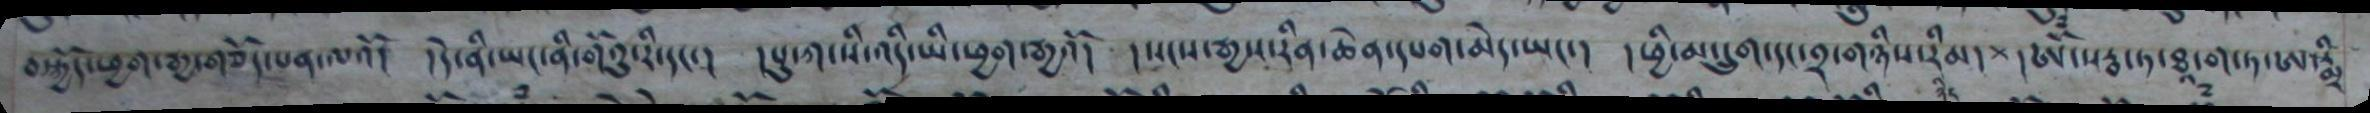བསྐྱོད་ཕྱག་རྒྱ་གཅོད་པན་ལའོ།   །དེ་ནི་ཡང་ནི་གོའུ་རི་དང་།  །པུ་ཀ་སི་འདི་ཡི་ཕྱ་རྒྱའོ།   །སངས་རྒྱས་རིན་ཆེན་དཔག་མེད་ཡང་།  །ཕྱི་མ་དྲུག་དང་༢་གཉིས་རིམ་ཉིད།  ཨོཾ་སརྦ་ཏ་ཐཱ་ག་ཏ་ཨསྨྲི
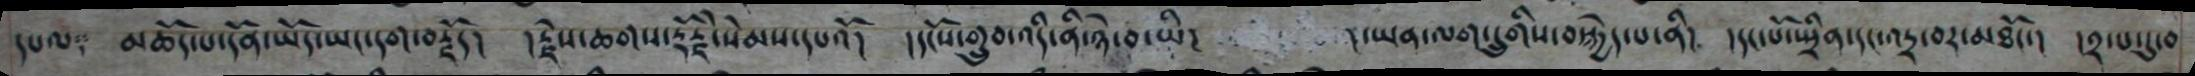དཔལ༑ མཆོད་པ་དོན་ཡོད་ཡང་དག་བརྗོད། །རྗེས་ཆགས་རྡོརྗེ་སེམས་དཔའོ། །དངོས་གྲུབ་འདི་ནི་ཉེ་བ་ཡི། །ཡན་ལག་དྲུགིས་བསྐྱེད་པ་ནི། །དང་པོ་སྤྲིན་དང་འདྲ་བར་མཐོང་། །༢་པ་དུ་བ
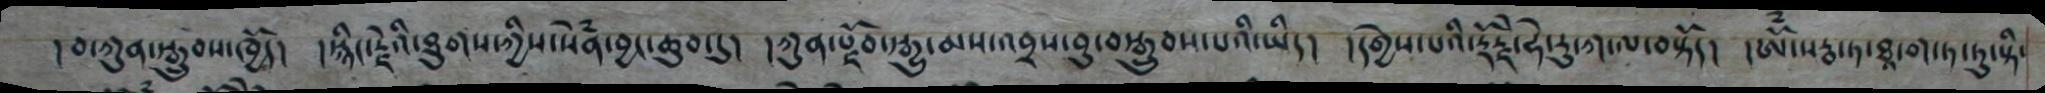།བ་ཀུན་སྒྲུབས་ལཁྱོད། །སྙིང་རྗེའི་ཐུགས་ཀྱིས་སེཾན་བྱང་ཆུབ་དུ། །ཀུན་སྫོབ་སྒྱུ་མས་འབྲས་བུ་བསྒྲུབས་པའི་ཡིད། །དགྱེས་པའི་རྡོརྗེ་ཧེ་རུ་ཀ་ལ་བསྟོད། །ཨོཾ་སརྦ་ཏ་ཐཱ་ག་ཏ་ཏུ་སྟི་
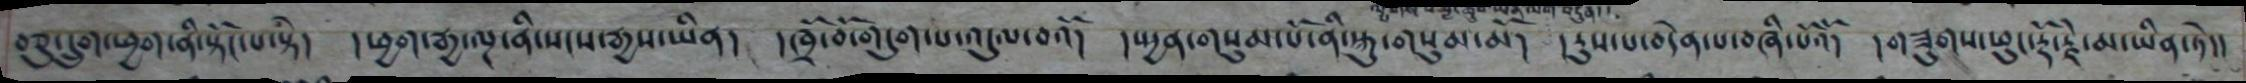བཅུ་དྲུག་ཕྱག་ནི་སྟོང་པ་སྟེ།  །ཕྱག་རྒྱ་ལྔ་ནི་སངས་རྒྱས་ཡིན།  །ཁྲོ་བོ་གདུག་པ་འདུལ་བའོ།  །སྤྱན་གསུམ་པོ་ནི་སྐུ་གསུམ་མོ།   །རུས་པ་བདེན་པ་བཞི་པོའོ།   །གཟུགས་ཕུང་རྡོ་རྗེ་མ་ཡིན་ཏེ།།
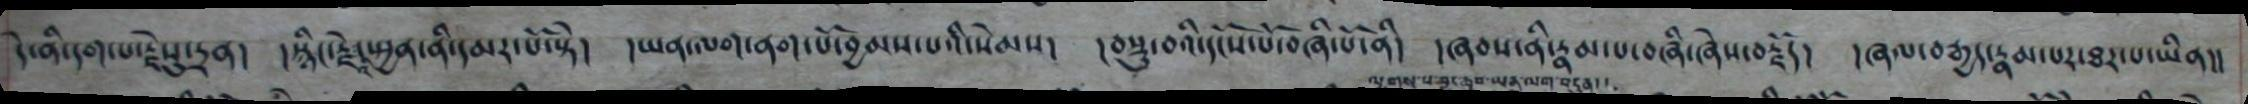དེ་ནི་དག་པ་རྗེསུ་དྲན།  །སྙིང་རྗེ་སྤྱན་ནི་དམར་པོ་སྟེ།  །ཡན་ལག་ནག་པོ་བྱམས་པའི་སེམས།  །བསྡུ་བའི་དངོས་པོ་བཞི་པོ་ནི།  །ཞབས་ན་རྣམ་པ་བཞི་ཞེས་བརྗོད།  །ཞལ་བརྒྱད་རྣམ་པར་ཐར་པ་ཡིན།།
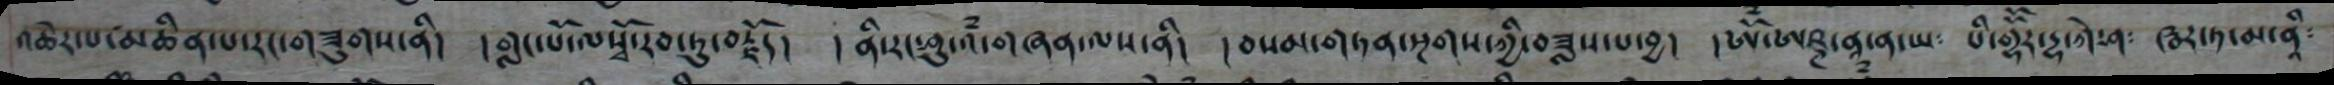འཆེར་པ་མཆིན་པ་རང་གཟུགས་ནི། །གླང་པོ་ལསྭོ་རབ་ཏུ་བརྗོད། །ནི་རང་ཤུ་འཾ་གཞན་ལས་ནི། །བསམ་གཏན་སྔགས་ཀྱི་བཟླས་པ་བྱ། །ཨོཾ་ཨཥྚ་ནཱ་ན་ཡ༴ པི་གྷོོར་དྷ་ཀེ་ཤ༴ ཝར་ཏ་མ་ནཱི༴
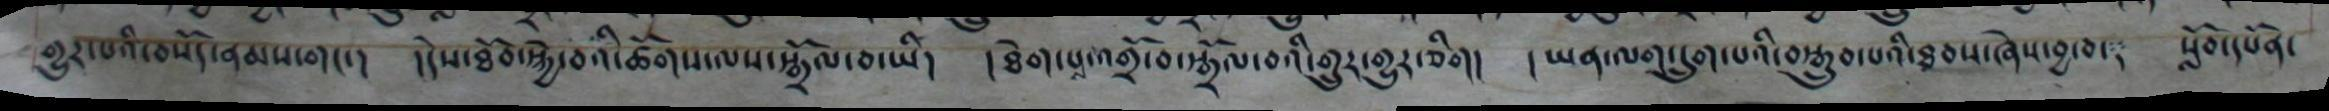གྱུར་པའི་བསོད་ནམས་གང་།  །དེས་ཐོབ་སྐྱེ་བའི་ཚོགས་ལས་སྒྲོལ་བ་ཡི།  །ཐེག་པས་འགྲོ་བ་སྒྲོལ་བའི་གྲུར་གྱུར་ཅིག།   །ཡན་ལག་དྲུག་པའི་བསྒྲུབ་པའི་ཐབས་ཞེས་བྱ་བ་།   སློབ་དཔོན་
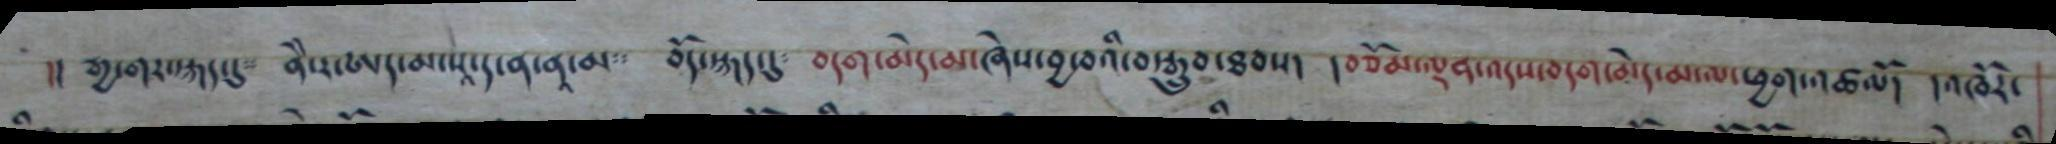།། རྒྱ་གར་སྐད་དུ༴ ནཻ་ར་ཨད་མ་སཱ་ད་ན་ནཱ་མ༴༴ བོད་སྐད་དུ༴ བདག་མེད་མ་ཞེས་བྱ་བའི་བསྒྲུབ་ཐབས། །བཅོམ་ལྡན་འདས་བདག་མེད་མ་ལ་ཕྱག་འཚལོ། །འཁོར་
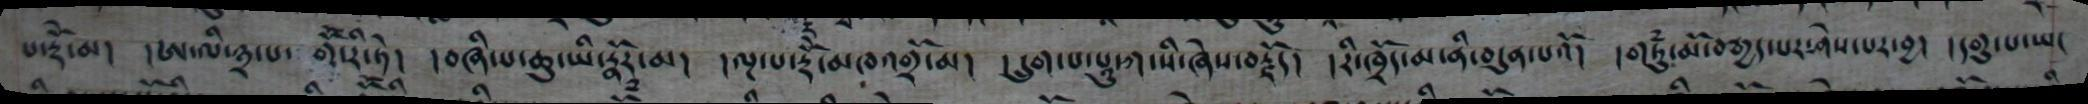པ་རྡོེ་མ། །ཨ་ལི་༣་པ་ གོོ་རི་ཏེ། །བཞི་པ་ཆུ་ཡི་རྣོར་མ། །ལྔ་པ་རྡོེ་མཁའགྲོ་མ། །དྲུག་པ་པཱུ་ཀ་སི་ཞེས་བརྗོད། །རི་ཁྲོད་མ་ནི་བདུན་པའོ། །གཏུཾ་མོ་བརྒྱད་པར་ཤེས་པར་བྱ། །དགུ་པ་ཡང
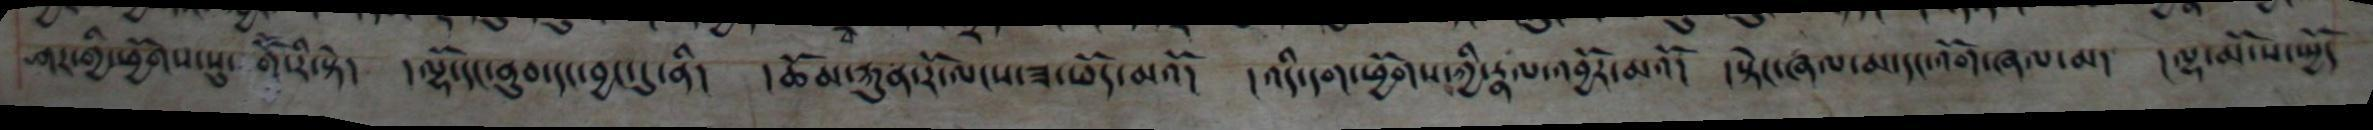ཤར་གྱི་ཕྱོགས་སུ་་  གོ་རི་སྟེ།  །ལྷོ་དང་ནུབ་དང་བྱང་དུ་ནི།   །ཆོམ་རྐུན་རོ་ལངས་ཟ་ཕོད་མའོ།   །འདི་དག་ཕྱོགས་ཀྱི་རྣལ་འབྱོར་མའོ།  །སྟེང་ཞལ་མ་དང་འོག་ཞལ་མ།  །ལྷ་མོ་ས་སྤྱོད
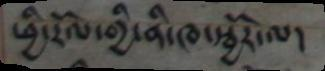ཕྱི་རོལ་གྱི་ནི་ཁ་སྦྱོར་ལ།
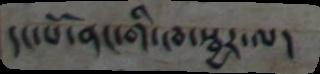དང་པོ་ནང་གི་ཁ་སྦྱར་ལ།
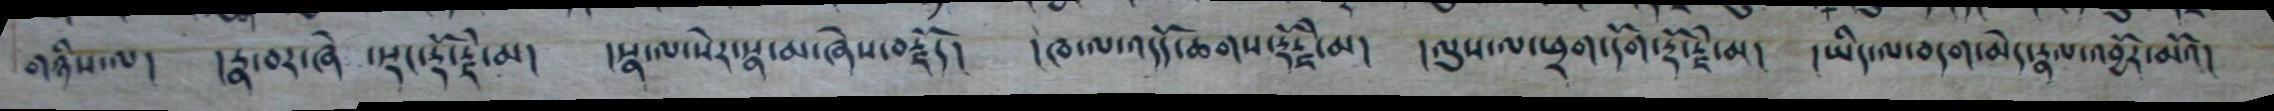གཉིས་ལ། །རྣ་བར་ཞེ ་སྡང་རྡོ་རྗེ་མ། །སྣ་ལ་སེར་སྣ་མ་ཞེས་བརྗོད། །ཁ་ལ་འདོད་ཆགས་རྡོ་རྗེ་མ། །ལུས་ལ་ཕྲག་དོག་རྡོ་རྗེ་མ། །ཡིད་ལ་བདག་མེད་རྣལ་འབྱོར་མའོ།
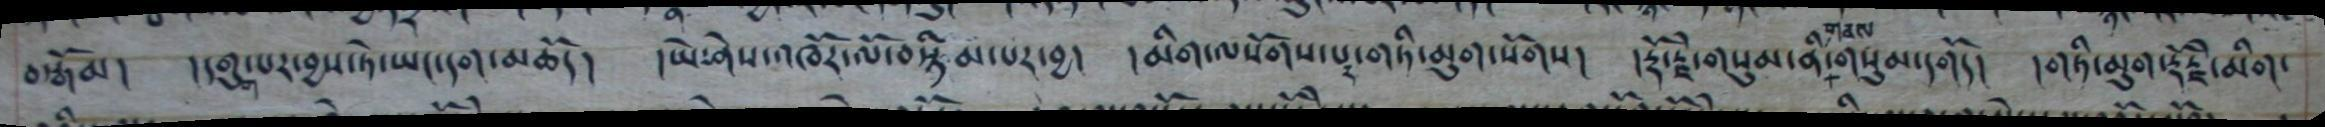བསྒོམ།   །དགུ་པར་བྱས་ཏེ་ཡང་དག་མཆོད།   །ཡེ་ཤེས་འཁོར་ལོ་བསྙིམ་པར་བྱ།   །མིག་ལསོགས་པར་གཏི་མུག་སོགས།   །རྡོ་རྗེ་གསུམ་ནི་གནས་གསུམ་དགོད།  །གཏི་མུག་རྡོ་རྗེ་མིག་
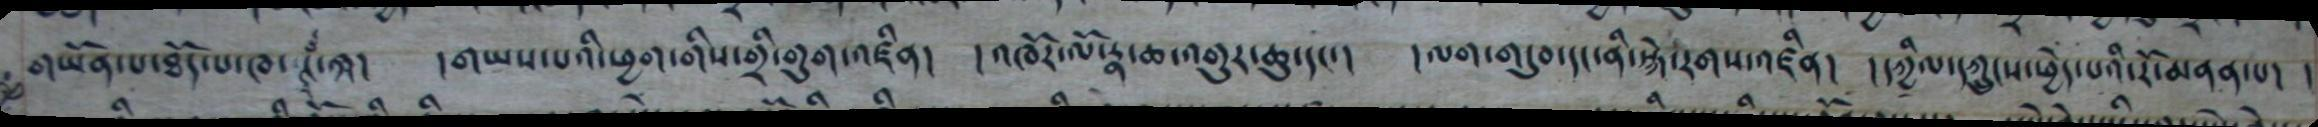གཡོན་པ་ཐོད་པ་ཁ་ ཊཾ་ཀ། །གཡས་པའི་ཕྱག་གིས་གྲི་གུག་འཛིན། །འཁོར་ལོ་རྣ་ཆ་འགུར་ཆུ་དང་། །ལག་གདུབ་དང་ནི་སྐེ་རགས་འཛིན། །དཀྱིལ་དཀྲུངས་ཕྱེད་པའི་རོ་མནན་པ། །
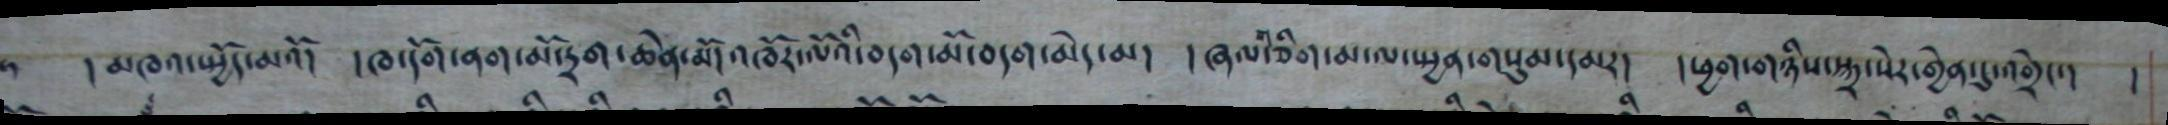།མཁའ་སྤྱོད་མའོ། །ཁ་དོག་ནག་མོ་དྲག་ཆེན་མོ། འཁོར་ལོའི་བདག་མོ་བདག་མེད་མ། །ཞལ་ཅིག་མ་ལལ་སྤྱན་གསུམ་དམར། །ཕྱག་གཉིས་སྐྲ་སེར་གྱེན་དུ་འགྲེང་།
